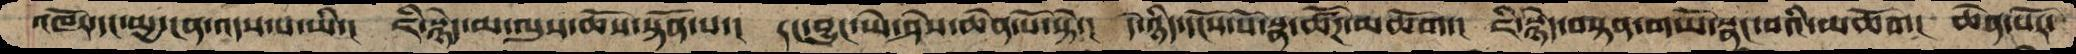འཁོར་དང་མྱ་ངན་འདས་པ་ཡི་།  ཇི་སྙེད་མ་ལུས་ཆོས་སྟོན་པ་།  རང་བྱུང་ཡེ་ཤེས་ཆེན་པོ་སྟེ་།  དེ་ཉིད་དངོས་པོ་སྣ་ཚོཌ་མཆོག་།  ཇི་སྙེད་བསྟན་གཡོ་སྣང་བའི་མཆོག།  ཆེན་པོར་
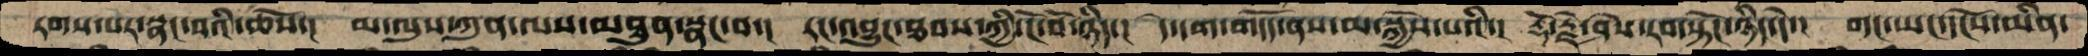རགས་པར་སྣང་བའི་ཆོས་།  མ་ལུས་ཀུན་ལས་མཐུན་སྣང་བ་།  རང་འབྱུང་ཐབས་ཀྱི་ངོ་བོ་ཉིད་།  དེ་དག་གདོད་ནས་མ་སྐྱེས་པའི་།  རྡོ་རྗེ་ཤེས་རབ་སྟོང་ཉིད་དེ་།  གང་ཡང་དངོས་མིན་
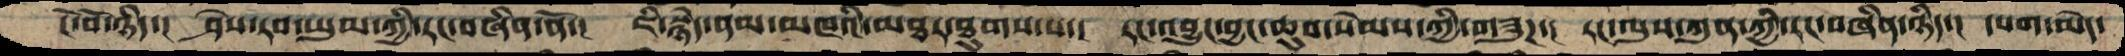ངོ་བོ་ཉིད་།  ཤེས་རབ་ཡུམ་ཀྱི་རང་བཞིན་ནོ་།  ཇི་སྙེད་ནམ་མཁའི་མཐར་ཐུགས་པ་།  རང་འབྱུང་བྱང་ཆུབ་སེམས་ཀྱི་གཟུཌ་།  རང་ལུས་ཀུན་ཀྱི་རང་བཞིན་ཉིད་།  དཔག་མེད་
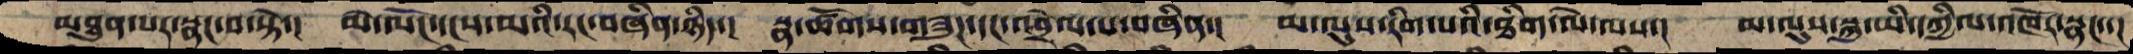མཐུན་པར་སྣང་བ་སྟེ་།  མེ་ལོང་དངས་མའི་རང་བཞིན་ཉིད་།  སྣ་ཚོགས་གཟུཌ་དང་འབྲེལ་པ་བཞིན་།  མ་ལུས་རིག་པའི་ཐིག་ལེ་ལས་།  མ་ལུས་སྐུ་ཡི་དཀྱིལ་འཁོར་སྣང་་།
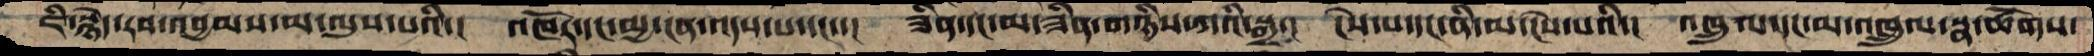ཇི་སྙེད་རབ་འབྱམས་མ་ལུས་པའི་།  འཁོར་དང་མྱ་ངན་འདས་པ་དང་་།  ཟིན་དང་མ་ཟིན་གཉིས་ཀའི་སྒྲ་།  ངེས་པ་དང་ནི་མ་ངེས་པའི་།  འཁྲུལ་དང་མ་འཁྲུལ་སྣ་ཚོགས་
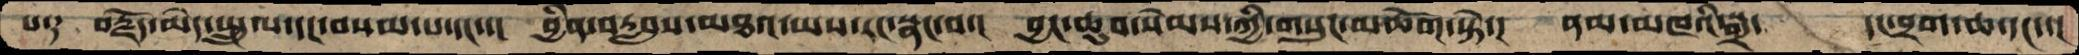པར་  བརྗོད་མེད་སྤྲུལ་དང་བསམ་པ་དང་་།  བྱིན་བརླབས་མཐའ་ཡས་རང་སྣང་བ་།  བྱང་ཆུབ་སེམས་ཀྱི་གསུང་མཆོག་སྟེ་།  ནམ་མཁའི་སྒྲ་  དང་བྲག་ཆ་དང་་།
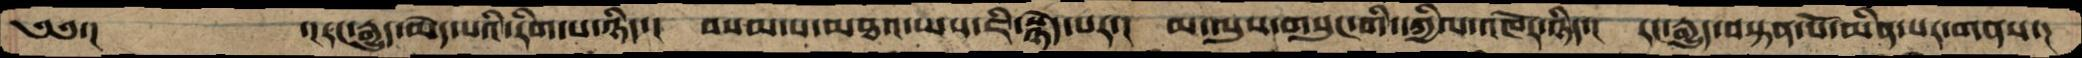༄༅་།          ་།རང་རྒྱུད་མེད་པའི་རིག་པ་ཉིད་།  བསམ་པ་མཐའ་ཡས་ཇི་སྙེད་པར་།  མ་ལུས་གསུང་གི་དཀྱིལ་འཁོར་ཉིད་།  རང་རྒྱུད་བསྟན་པོ་མིན་པར་གནས་།
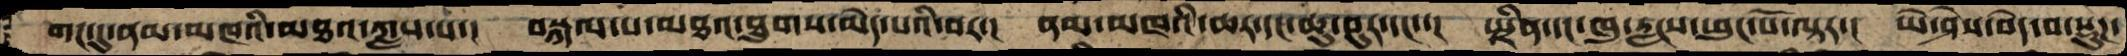གང་དུ་ནམ་མཁའི་མཐའ་ཀླས་པ་།  བསྐལ་པ་མཐའ་ཐུགས་མེད་པའི་བར་།  ནམ་མཁའི་ཆར་དང་ཆུ་བུར་དང་་།   སྤྲིན་དང་ཁུ་རླངས་ཕུང་པོ་ལྟར་།  ཡེ་ཤེས་བདེ་བ་སྡུཌ་
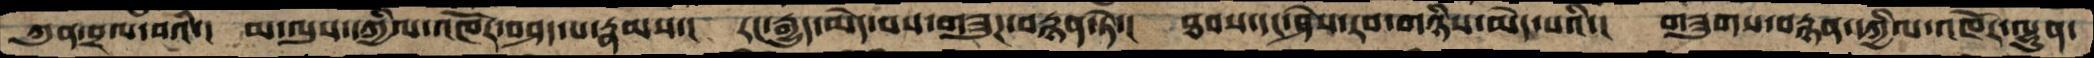ཀུན་བྲལ་བའི་།  མ་ལུས་དཀྱིལ་འཁོར་བཤད་པ་རྣམས་།  རང་རྒྱུད་མེད་པས་གཟུཌ་བརྙན་ཏེ་།  ཐབས་དང་ཤེས་རབ་གཉིས་མེད་པའི་།  གཟུགས་བརྙན་དཀྱིལ་འཁོར་ལྷུན་
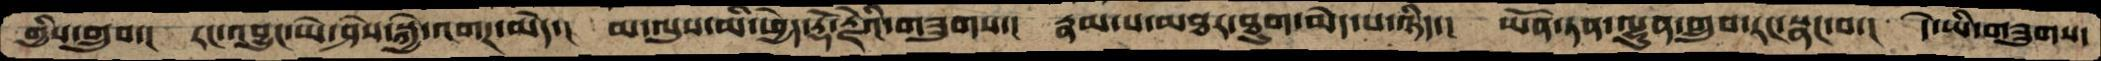གྱིས་གྲུབ་།  རང་འབྱུང་ཡེ་ཤེས་སྐྱེ་འགཌ་མེད་།  མ་ལུས་མི་ཕྱེད་རྡོ་རྗེའི་གཟུགས་།  རྣམ་པ་མཐར་ཐུག་མེད་པ་ཉིད་།  ཡོན་ཏན་ལྷུན་གྲུབ་རང་སྣང་བ་།  དེ་ཡི་གཟུགས་
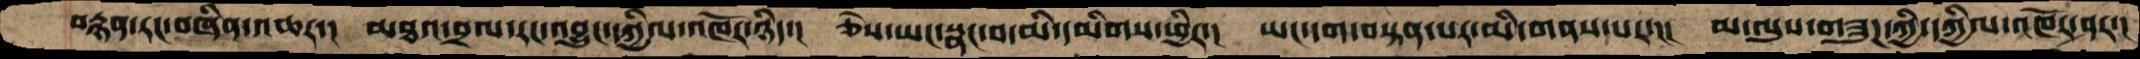བརྙན་རང་བཞིན་འཆར་།  མཐའ་བྲལ་རང་འབྱུང་དཀྱིལ་འཁོར་ཉིད་།  ཅེས་ཡང་སྣང་བ་མི་དམིགས་ཕྱིར་།  ཡང་དག་བསྟན་པར་མི་གནས་པར་།  མ་ལུས་གཟུཌ་ཀྱི་དཀྱིལ་འཁོར་ཤར་།
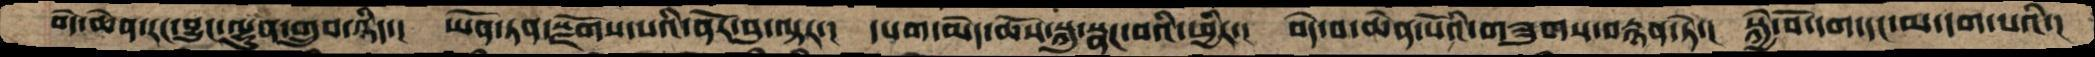བདེ་ཆེན་རང་བྱུང་ལྷུན་གྲུབ་ཉིད་།  ཡོན་ཏན་སྫོགས་པའི་ནོར་བུ་ལྟར་།  དཔག་མེད་ཆོས་སྐུ་སྣང་བའི་ཕྱིར་།  བདེ་བ་ཆེན་པོའི་གཟུགས་བརྙན་ཏེ་།  སྐྱེ་བོ་དག་དང་མ་དག་པའི་།
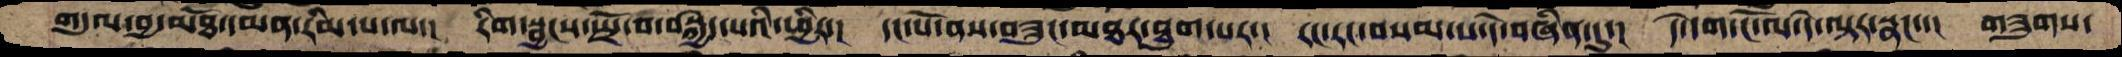གདུལ་བྱ་མཐོ་དམན་རིམ་པ་ལ་།  རིག་སྦྱངས་སྤྲོ་བ་བསྐྱེད་པའི་ཕྱིར་།  དང་པོ་ནས་བཟུང་མཐར་ཐུག་པར་།  རང་རང་བསམ་པ་དེ་བཞིན་དུ་།  དེ་དག་ངོ་ལ་དེ་ལྟར་སྣང་་།  གཟུགས་
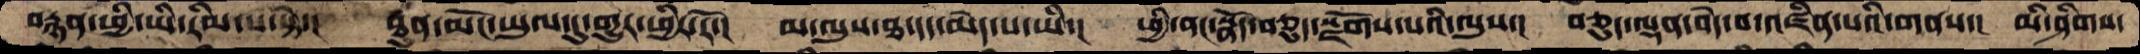བརྙན་ཕྱི་ཡི་རིམ་པ་སྟེ་།  ཐུན་མོང་ཡུལ་དུ་གྱུར་ཕྱིར་རོ་།  མ་ལུས་ཐ་དད་མེད་པ་ཡི་།  ཕྱི་ནང་སྣོད་བཅུད་སྫོགས་པའི་ལུས་།  བཅུད་ལྡན་བདེ་བ་འཛིན་པའི་གནས་།  མི་ཤིགས་
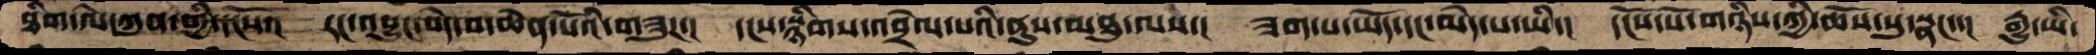ཐིག་ལེ་ཀུན་གྱི་དངོས་།  རང་འབྱུང་བདེ་བ་ཆེན་པོའི་གཟུཌ་།  དངས་སྙིགས་འབྲེལ་པའི་ནུས་མཐུ་ལས་།  ཟག་པ་ཡོད་དང་མེད་པ་ཡི་།  དངོས་པོ་གཉིས་ཀྱི་ཆོས་སུ་སྣང་་།  རྒྱུ་ཡི་
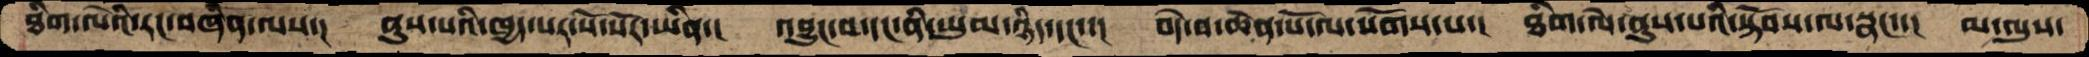ཐིག་ལེའི་རང་བཞིན་ལས་།  ནུས་པའི་ཁྱད་པར་སོ་སོར་ཡིན་།  འབྱུང་བ་དང་ནི་ཡུམ་ཉིད་དང་་།  བདེ་བ་ཆེན་པོ་ལ་སོགས་པ་།  ཐིག་ལེ་ནུས་པའི་སྟོབས་ལ་སྣང་་།  མ་ལུས་
